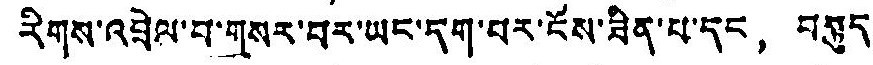རིགས་འབྲེལ་བ་གསར་བར་ཡང་དག་པར་ངོས་ཟིན་པ་དང， བསྟུད་
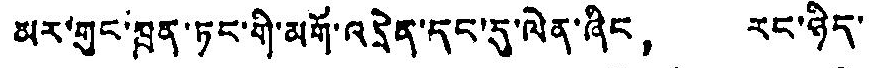མར་གུང་ཁྲན་ཏང་གི་མགོ་འདྲེན་དང་དུ་ལེན་ཞིང， རང་ཉིད་
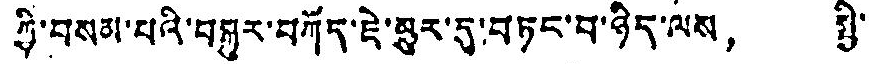ཀྱི་བསམ་པའི་བསྐྱར་བཀོད་ཇེ་མྱུར་དུ་བཏང་བ་ཉིད་ལས， སྤྱི་
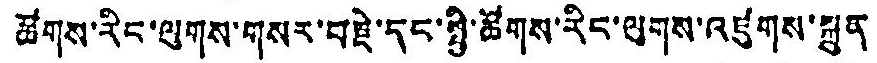ཚོགས་རིང་ལུགས་གསར་བརྗེ་དང་སྤྱི་ཚོགས་རིང་ལུགས་འཛུགས་སྐྲུན
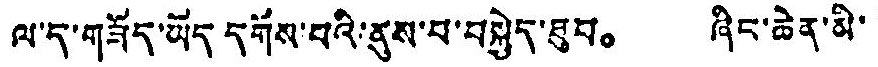ལ་ད་གཟོད་ཡོད དགོས་པའི་ནུས་པ་བསྐྱེད་ཐུབ。 ཞིང་ཆེན་མི་
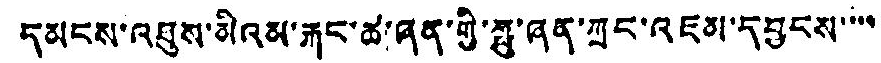དམངས་འཐུས་མིའམ་རྐང་ཚ་ཞན་གྱི་ཀླུ་ཞན་ཀྲང་འཇམ་དབྱངས་་་་
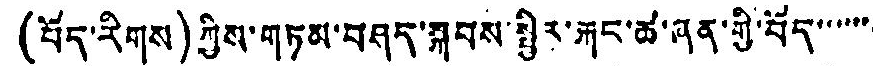(བོད་རིགས)ཀྱིས་གཏམ་བཤད་སྐབས་སྤྱིར་རྐང་ཚ་ཞན་གྱི་བོད་་་་་་
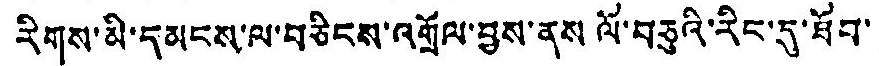རིགས་མི་དམངས་ལ་བཅིངས་འགྲོལ་བྱས་ནས ལོ་བཅུའི་རིང་དུ་ཐོབ་
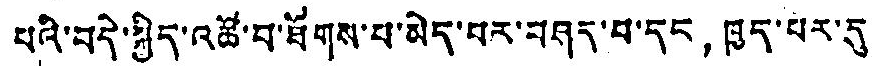པའི་བདེ་སྐྱིད་འཚོ་བ་ཐོགས་པ་མེད་པར་བཤད་པ་དང， ཁྱད་པར་དུ
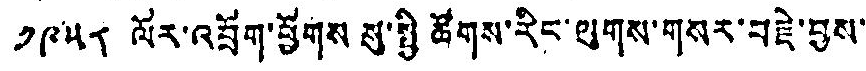༡༩༥༨ ལོར་འབྲོག་ཕྱོགས སུ་སྤྱི ཚོགས་རིང་ལུགས་གསར་བརྗེ་བྱས་
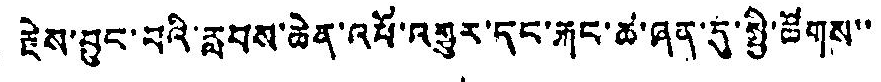རྗེས་བྱུང་བའི་རླབས་ཆེན་འབོ་འགྱུར་དང་རྐང་ཚ་ཞན་དུ་སྤྱི་ཚོགས་་
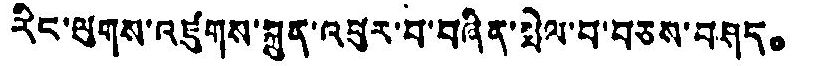རིང་ལུགས་འཛུགས་སྐྲུན་འབུར་བ་བཞིན་སྤེལ་བ་བཅས་བཤད。
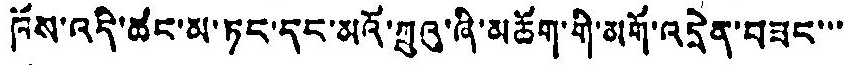ཁོས་འདི་ཚང་མ་ཏང་དང་མའོ་ཀྲུའུ་ཞི་མཆོག་གི་མགོ་འདྲེན་བཟང་་་
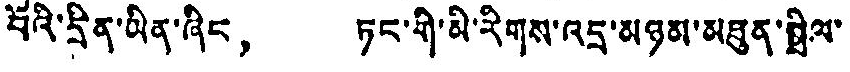བོའི་དྲིན་ཡིན་ཞིང， ཏང་གི་མི་རིགས་འདྲ་མཉམ་མཐུན་སྒྲིལ་
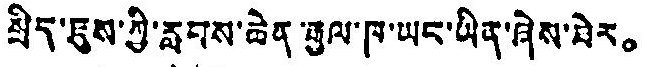སྲིད་ཇུས་ཀྱི་རླབས་ཆེན་རྒྱལ་ཁ་ཡང་ཡིན་ཞེས་ཐེར。
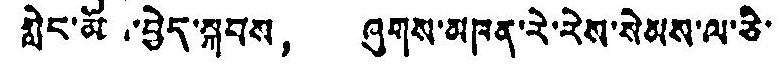གླེང་མོ་བྱེད་སྐབས， ཞུགས་མཁན་རེ་རེས་སེམས་ལ་ཅི་
